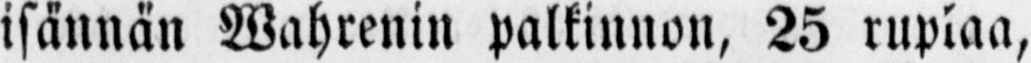isännän Wahrenin palkinnon, 25 rupiaa,
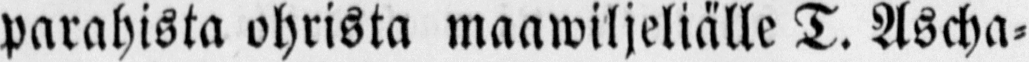parahista ohrista maawiljeliälle T. Ascha-
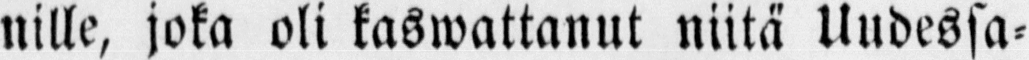nille, joka oli kaswattanut niitä Uudessa-
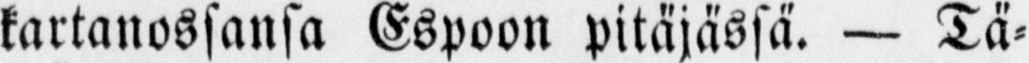kartanossansa Espoon pitäjässä. — Tä-
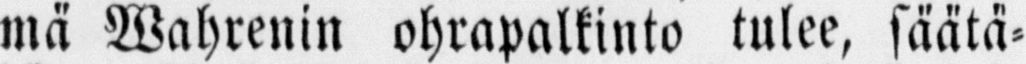mä Wahrenin ohrapalkinto tulee, säätä-
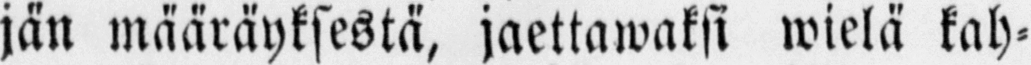jän määräyksestä, jaettawaksi wielä kah-
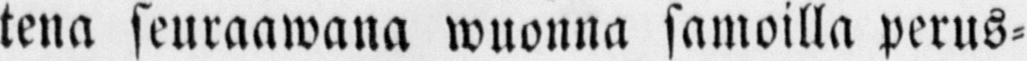tena seuraawana wuonna samoilla perus-
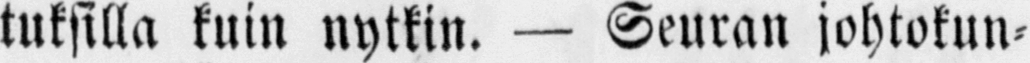tuksilla kuin nytkin. — Seuran johtokun-
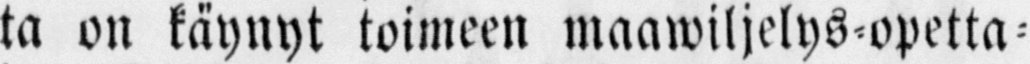ta on käynyt toimeen maawiljelys-opetta-
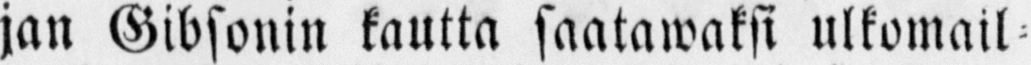jan Gibsonin kautta saatawaksi ulkomail-
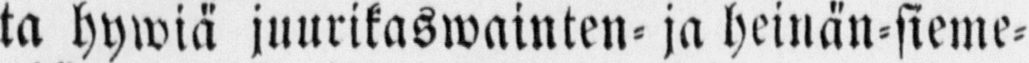ta hywiä juurikaswainten- ja heinän-sieme-
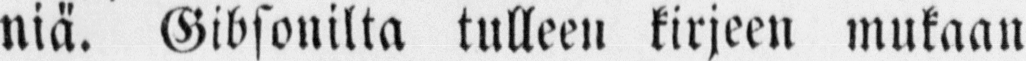niä. Gibsonilta tulleen kirjeen mukaan
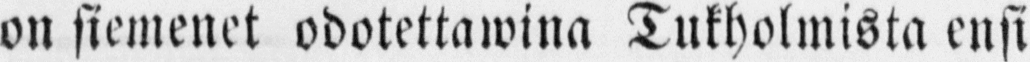on siemenet odotettawina Tukholmista ensi
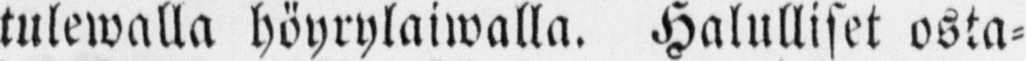tulewalla höyrylaiwalla. Halulliset osta-
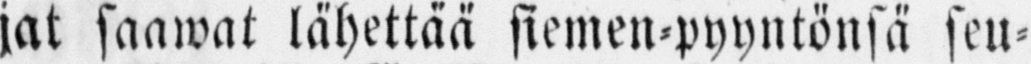jat saawat lähettää siemen-pyyntönsä seu-
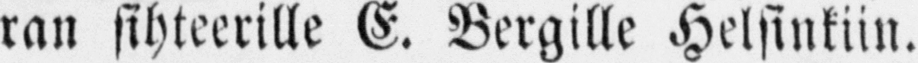ran sihteerille E. Bergille Helsinkiin.
